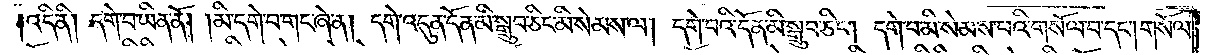འདི་ནི། དགེ་བ་ཡིན་ནོ། །མི་དགེ་བ་གང་ཞེ་ན། དགེ་འདུན་དོན་མི་སྒྲུབ་ཅིང་མི་སེམས་ལ། དགེ་བའི་དོན་མི་སྒྲུབ་ཅིང༌། དགེ་བ་མི་སེམས་པའི་གསོལ་བ་དང༌། གསོལ་
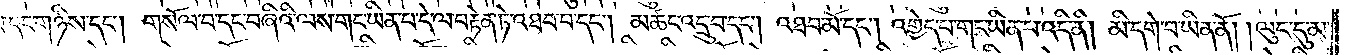བ་དང་གཉིས་དང༌། གསོལ་བ་དང་བཞིའི་ལས་གང་ཡིན་པ་དེ་ལ་བརྟེན་ཏེ་འཐབ་པ་དང༌། མཚང་འདྲུ་བ་དང༌། འཐབ་མོ་དང༌། འགྱེད་པ་གང་ཡིན་པ་འདི་ནི། མི་དགེ་བ་ཡིན་ནོ། །ལུང་དུ་མ་
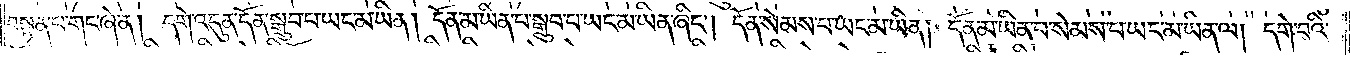བསྟན་པ་གང་ཞེ་ན། དགེ་འདུན་དོན་སྒྲུབ་པ་ཡང་མ་ཡིན། དོན་མ་ཡིན་པ་སྒྲུབ་པ་ཡང་མ་ཡིན་ཞིང༌། དོན་སེམས་པ་ཡང་མ་ཡིན། དོན་མ་ཡིན་པ་སེམས་པ་ཡང་མ་ཡིན་ལ། དགེ་བའི་
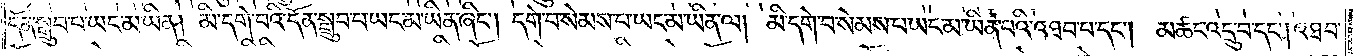དོན་སྒྲུབ་པ་ཡང་མ་ཡིན། མི་དགེ་བའི་དོན་སྒྲུབ་པ་ཡང་མ་ཡིན་ཞིང༌། དགེ་བ་སེམས་པ་ཡང་མ་ཡིན་ལ། མི་དགེ་བ་སེམས་པ་ཡང་མ་ཡིན་པའི་འཐབ་པ་དང༌། མཚང་འདྲུ་བ་དང༌། འཐབ་
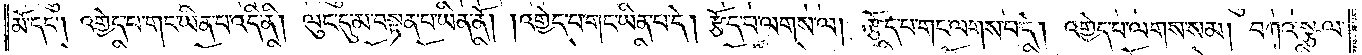མོ་དང༌། འགྱེད་པ་གང་ཡིན་པ་འདི་ནི། ལུང་དུ་མ་བསྟན་པ་ཡིན་ནོ། །འགྱེད་པ་གང་ཡིན་པ་དེ། རྩོད་པ་ལགས་ལ། རྩོད་པ་གང་ལགས་པ་དེ། འགྱེད་པ་ལགས་སམ། བཀའ་སྩལ་
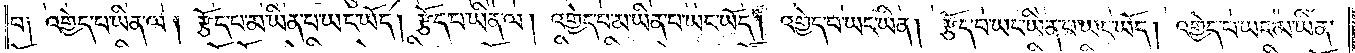པ། འགྱེད་པ་ཡིན་ལ། རྩོད་པ་མ་ཡིན་པ་ཡང་ཡོད། རྩོད་པ་ཡིན་ལ། འགྱེད་པ་མ་ཡིན་པ་ཡང་ཡོད། འགྱེད་པ་ཡང་ཡིན། རྩོད་པ་ཡང་ཡིན་པ་ཡང་ཡོད། འགྱེད་པ་ཡང་མ་ཡིན་
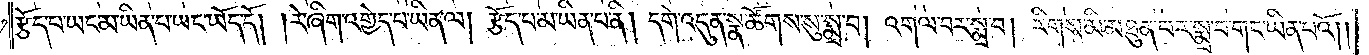རྩོད་པ་ཡང་མ་ཡིན་པ་ཡང་ཡོད་དོ། །རེ་ཞིག་འགྱེད་པ་ཡིན་ལ། རྩོད་པ་མ་ཡིན་པ་ནི། དགེ་འདུན་སྣ་ཚོགས་སུ་སྨྲ་བ། འགལ་བར་སྨྲ་བ། རིགས་མི་མཐུན་པར་སྨྲ་བ་གང་ཡིན་པའོ། །
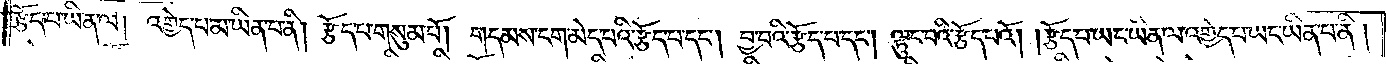རྩོད་པ་ཡིན་ལ། འགྱེད་པ་མ་ཡིན་པ་ནི། རྩོད་པ་གསུམ་པོ། གདམས་ངག་མེད་པའི་རྩོད་པ་དང༌། བྱ་བའི་རྩོད་པ་དང༌། ལྟུང་བའི་རྩོད་པའོ། །རྩོད་པ་ཡང་ཡིན་ལ་འགྱེད་པ་ཡང་ཡིན་པ་ནི།
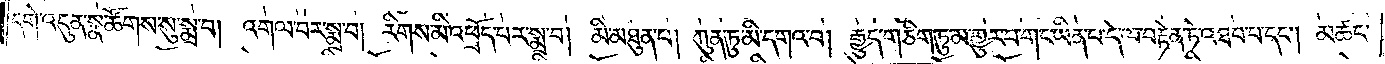དགེ་འདུན་སྣ་ཚོགས་སུ་སྨྲ་བ། འགལ་བར་སྨྲ་བ། རིགས་མི་འཕྲོད་པར་སྨྲ་བ། མི་མཐུན་པ། ཀུན་ཏུ་མི་དགའ་བ། རྒྱུད་གཅིག་ཏུ་མ་གྱུར་པ་གང་ཡིན་པ་དེ་ལ་བརྟེན་ཏེ་འཐབ་པ་དང༌། མཚང་
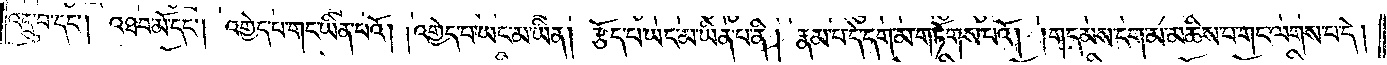འདྲུ་བ་དང༌། འཐབ་མོ་དང༌། འགྱེད་པ་གང་ཡིན་པའོ། །འགྱེད་པ་ཡང་མ་ཡིན། རྩོད་པ་ཡང་མ་ཡིན་པ་ནི། རྣམ་པ་དེ་དག་མ་གཏོགས་པའོ། །གདམས་ངག་མ་མཆིས་པ་གང་ལགས་པ་དེ།
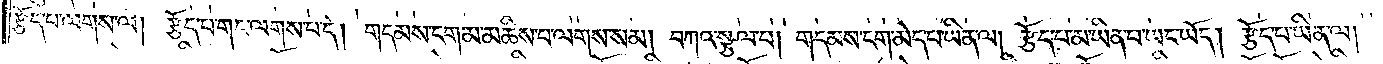རྩོད་པ་ལགས་ལ། རྩོད་པ་གང་ལགས་པ་དེ། གདམས་ངག་མ་མཆིས་པ་ལགས་སམ། བཀའ་སྩལ་པ། གདམས་ངག་མེད་པ་ཡིན་ལ། རྩོད་པ་མ་ཡིན་པ་ཡང་ཡོད། རྩོད་པ་ཡིན་ལ།
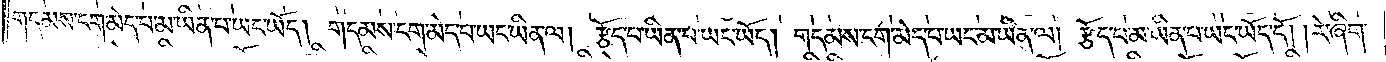གདམས་ངག་མེད་པ་མ་ཡིན་པ་ཡང་ཡོད། གདམས་ངག་མེད་པ་ཡང་ཡིན་ལ། རྩོད་པ་ཡང་ཡིན་པ་ཡང་ཡོད། གདམས་ངག་མེད་པ་ཡང་མ་ཡིན་ལ། རྩོད་པ་ཡིན་པ་ཡང་ཡོད་དོ། །རེ་ཞིག་
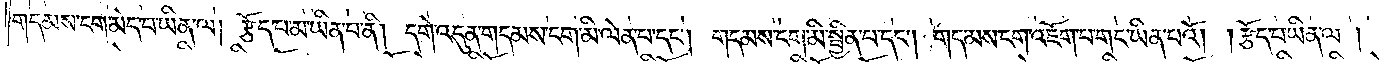གདམས་ངག་མེད་པ་ཡིན་ལ། རྩོད་པ་མ་ཡིན་པ་ནི། དགེ་འདུན་གདམས་ངག་མི་ལེན་པ་དང༌། གདམས་ངག་མི་སྦྱིན་པ་དང༌། གདམས་ངག་འཇོག་པ་གང་ཡིན་པའོ། །རྩོད་པ་ཡིན་ལ།
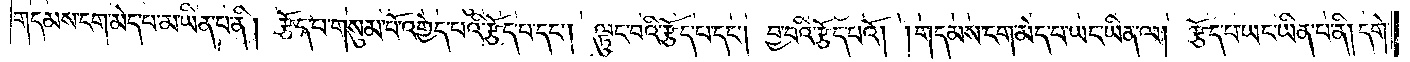གདམས་ངག་མེད་པ་མ་ཡིན་པ་ནི། རྩོད་པ་གསུམ་པོ་འགྱེད་པའི་རྩོད་པ་དང༌། ལྟུང་བའི་རྩོད་པ་དང༌། བྱ་བའི་རྩོད་པའོ། །གདམས་ངག་མེད་པ་ཡང་ཡིན་ལ། རྩོད་པ་ཡང་ཡིན་པ་ནི། དགེ་
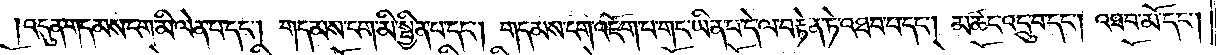འདུན་གདམས་ངག་མི་ལེན་པ་དང༌། གདམས་ངག་མི་སྦྱིན་པ་དང༌། གདམས་ངག་འཇོག་པ་གང་ཡིན་པ་དེ་ལ་བརྟེན་ཏེ་འཐབ་པ་དང༌། མཚང་འདྲུ་བ་དང༌། འཐབ་མོ་དང༌།
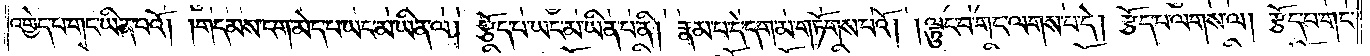འགྱེད་པ་གང་ཡིན་པའོ། །གདམས་ངག་མེད་པ་ཡང་མ་ཡིན་ལ། རྩོད་པ་ཡང་མ་ཡིན་པ་ནི། རྣམ་པ་དེ་དག་མ་གཏོགས་པའོ། །ལྟུང་བ་གང་ལགས་པ་དེ། རྩོད་པ་ལགས་ལ། རྩོད་པ་གང་
